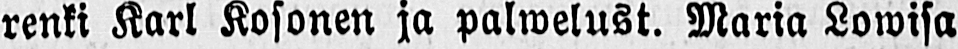renki Karl Kosonen ja palwelust. Maria Lowisa
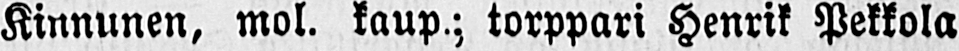Kinnunen, mol. kaup.; torppari Henrik Pekkola
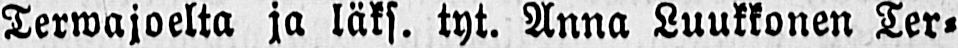Terwajoelta ja läks. tyt. Anna Luukkonen Ter-
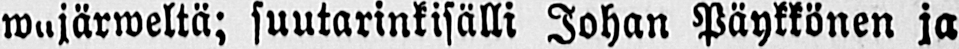wajärweltä; suutarinkisälli Johan Päykkönen ja
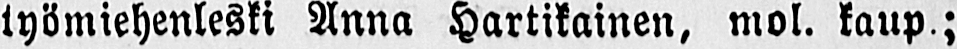työmiehenleski Anna Hartikainen, mol. kaup.;
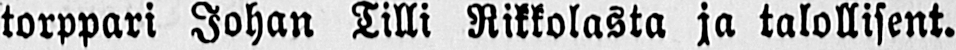torppari Johan Tilli Rikkolasta ja talollisent.
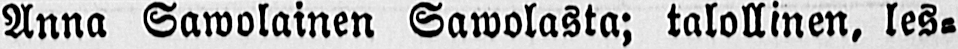Anna Sawolainen Sawolasta; talollinen, les-
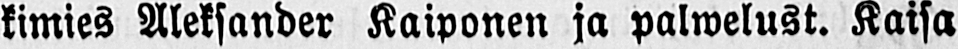kimies Aleksander Kaiponen ja palwelust. Kaisa
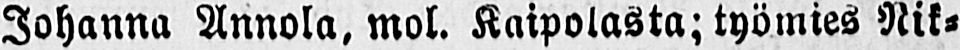Johanna Annola, mol. Kaipolasta; työmies Nik-
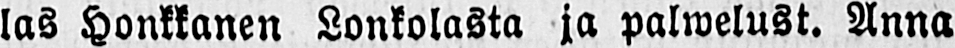las Honkkanen Lonkolasta ja palwelust. Anna
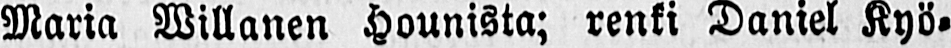Maria Willanen Hounista; renki Daniel Kyö-
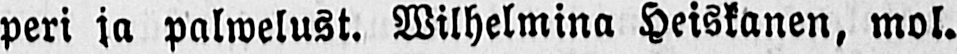peri ja palwelust. Wilhelmina Heiskanen, mol.
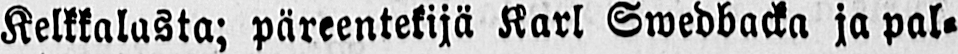Kelkkalasta; päreentekijä Karl Swedbacka ja pal-
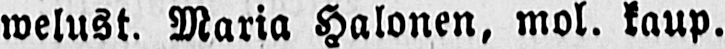welust. Maria Halonen, mol. kaup.
